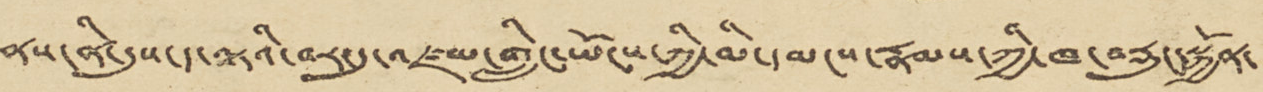ནས་ནི་དུས་ད་ལྟའི་བར་དུ་འཛམ་གླིང་ཡོངས་ཀྱི་མི་དམངས་རྣམས་ཀྱི་ཁ་བརྡུང་སྐྱོན་
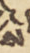ས
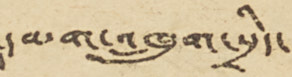དམག་འཁྲུག་སྲིད་
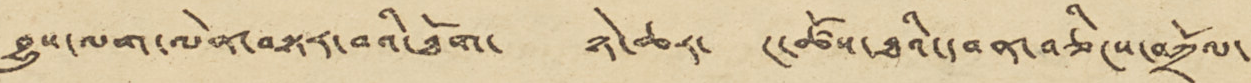བྱུས་ལག་ལེན་བསྟར་བའི་ཐོག་ ཉེ་ཆར་ ང་ཚོས་ཐའི་དབན་བཅིངས་བཀྲོལ་
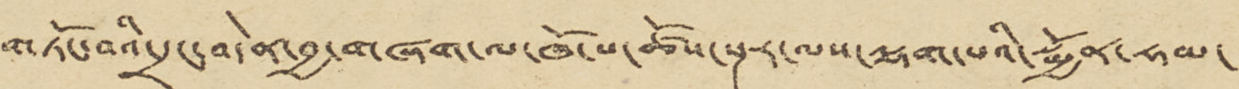གཏོང་བའི་དྲང་བདེན་བྱ་གཞག་ལ་ཁོ་པ་ཚོས་སྔར་ལས་ལྷག་པའི་སྨྱོན་ཧམ་
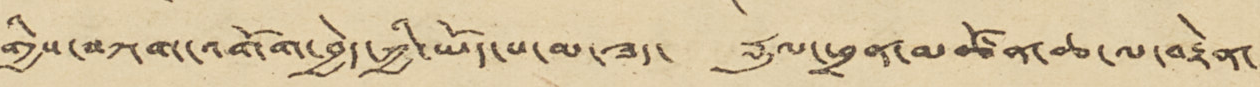གྱིས་བཀག་འགོག་བྱེད་ཀྱི་ཡོད་པ་མ་ཟད་ རྡུལ་ཕྲན་མཚོན་ཆ་ལ་བརྟེན་
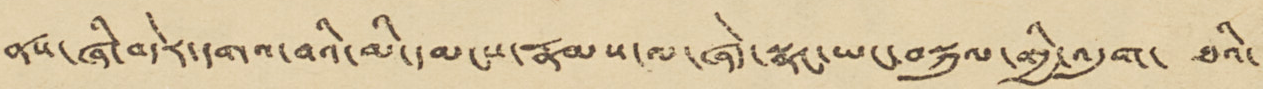ནས་ཞི་བདེར་དགའ་བའི་མི་དམངས་རྣམས་ལ་ཞེད་སྣང་ཡང་བསྐུལ་གྱི་འདུག་ ཐའི་
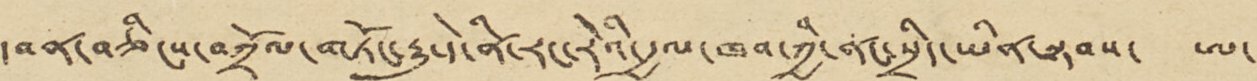དབན་བཅིངས་བཀྲོལ་གཏོང་རྒྱུ་དེ་ནི་རང་རེའི་རྒྱལ་ཁབ་ཀྱི་ནང་སྲིད་ཡིན་སྟབས་ ཨ་
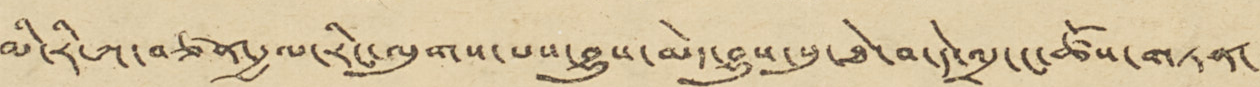མི་རི་ཀ་བཙན་རྒྱལ་རིང་ལུགས་པས་བྱུས་མེད་བྱུས་སུ་ཐེ་བ་དེ་འདྲ་ང་ཚོས་གཏན་
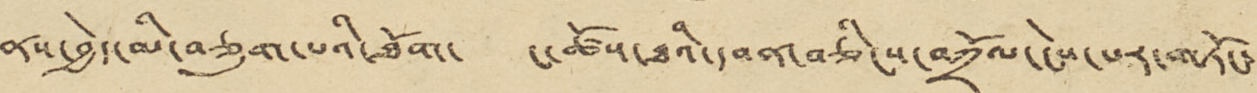ནས་བྱེད་མི་བཅུག་པའི་ཐོག་ ང་ཚོས་ཐའི་དབན་བཅིངས་བཀྲོལ་ངེས་པར་གཏོང་
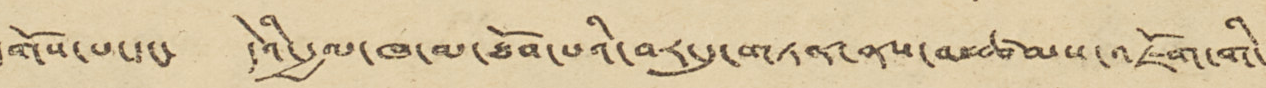དགོས་པ་དང་ དེའི་རྒྱལ་ཁ་མ་ཐོབ་པའི་བར་དུ་གཏན་ནས་མཚམས་འཇོག་གི་
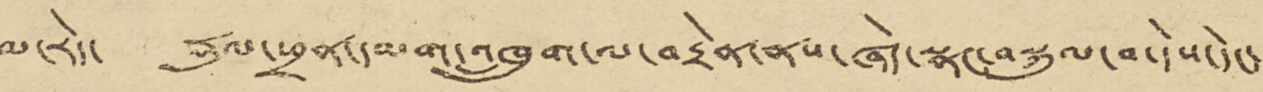མ་རེད་ རྡུལ་ཕྲན་དམག་འཁྲུག་ལ་བརྟེན་ནས་ཞེད་སྣང་བསྐུལ་བ་དེས་དེང་
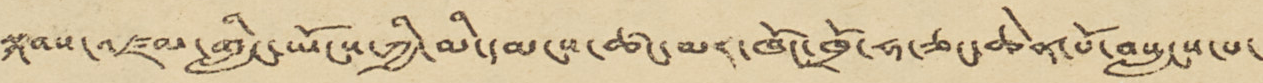སྐབས་འཛམ་གླིང་ཡོངས་ཀྱི་མི་དམངས་ཚང་མར་ཁོང་ཁྲོ་ཧ་ཅང་ཆེན་པོ་བསླངས་པ་
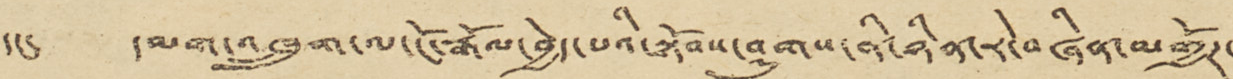དང་ དམག་འཁྲུག་ལ་ངོ་རྒོལ་བྱེད་པའི་སྟོབས་ཤུགས་ནི་ཉིན་རེ་བཞིན་མགྱོཊ་
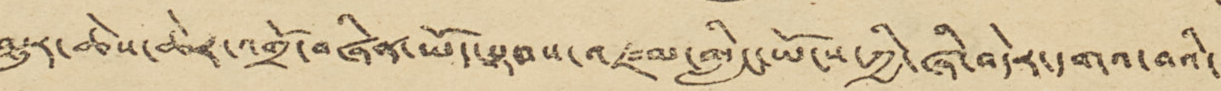མྱུར་ཆེས་ཆེར་འགྲོ་བཞིན་ཡོད་སྟབས་འཛམ་གླིང་ཡོངས་ཀྱི་ཞི་བདེར་དགའ་བའི་
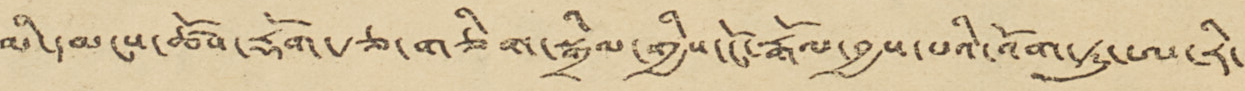མི་དམངས་ཚོས་རྡོག་རྩ་གཅིག་སྒྲིལ་གྱིས་ངོ་རྒོལ་བྱས་པའི་འོག་ཏུ་ཨ་རི་
